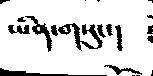ཡིན་གསུང་།
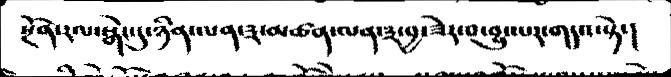སྔོན་རལ་སྒེང་དུ་ཉིན་ལན་༣་མཚན་ལན་༣་བྱ་ཟེར་བ་བྱུང་པར་གདའ་སྟེ་།
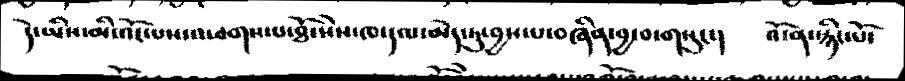དེ་ཡིས་མི་འོང་པས་འཕགས་པ་ཐོ་སེས་ཁ་དལ་མེད་ཏུ་བྱས་པ་བཞིན་བྱ་བ་གསུང་།  འོ་ན་སྙིང་པོ་
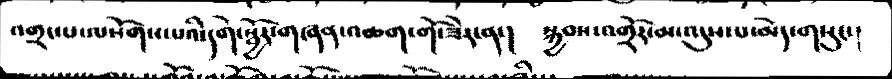འགྲང་པ་ལསོགས་པའི་དགེ་སྦྱོར་གཞན་འཆག་གོ་ཟེར་ན་།  སྐྱབས་འགྲོར་མ་འདུས་པ་མེད་གསུང་།
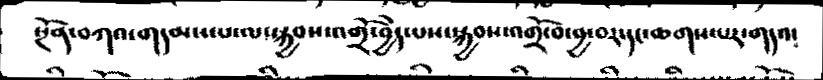སྔོན་བཀའ་གདམས་པ་ལ་སྐྱབས་འགྲོ་བྱེད་པས་སྐྱབས་འགྲོ་བ་བྱ་བར་དང་ཆགས་པར་གདའ་
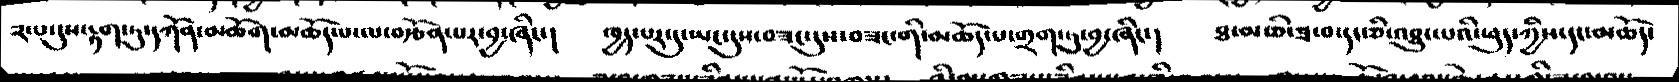༢་པ་དུས་རྟག་ཏུ་དཀོན་མཆོག་མཆོད་པ་ལ་བརྩོན་པར་བྱ་ཞིང་།  ཁྱད་པར་དུ་ཡང་དུས་བཟང་དུས་བཟང་གི་མཆོད་པ་གྲག་ཏུ་བྱ་ཞིང་།  ཐ་མ་ཅི་ཟ་བ་དང་ཅི་འཐུང་པའི་ཕུད་ཀྱིས་དང་མཆོད་
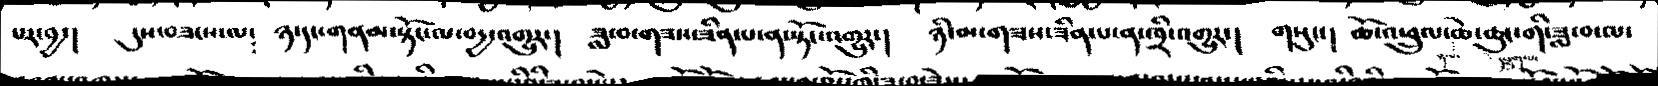པར་བྱ་།   དུས་བཟང་ལ་  ཉ་དང་གནམ་སྟོང་ལ་བདྱ་འགྱུར་།  ཟླ་བ་གཟས་ཟིན་པ་ན་སྟོང་འགྱུར་།  ཉི་མ་གཟས་ཟིན་པ་ན་ཁྲི་འགྱུར་།  གསུང་།  ཆོ་འཕྲུལ་ཆེ་ཆུང་གི་ཟླ་བ་ལ་
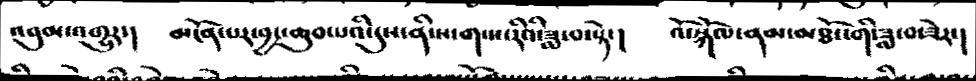འབུམ་འགྱུར་།   མངོན་པར་བྱང་ཆུབ་པའི་དུས་ནི་ས་ག་ས་རིའི་ཟླ་བ་སྟེ་།  འོ་སྐོལ་ནམ་མཐོང་གི་ཟླ་བ་ཟེར་།
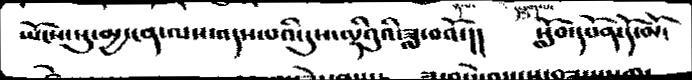ཡོངས་སུ་མྱ་ངན་ལས་འདས་པའི་དུས་ལྷའིུའི་ཟླ་བའོ་།    སློབ་དཔོན་དོ་མོ་
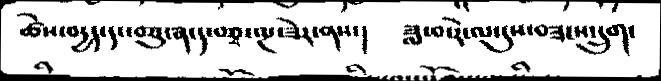ཚེས་བདྱད་དང་བཅུ་ན་དང་བཅྭ་ལྔ་ཟེར་ནས་།   ཟླ་བ་རེ་ལ་དུས་བཟངས་དྲུག་
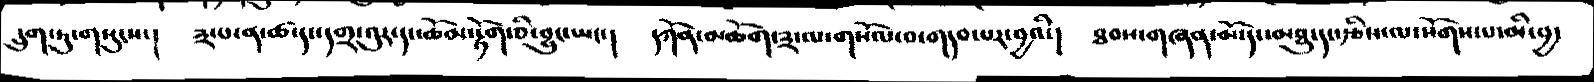དྲུག་ཏུ་གསུངས་།  ༣་པ་ན་ཚ་དང་དགྲ་འུར་དང་ཆོམ་རྟོག་ཅི་བྱུང་ཡང་།   དཀོན་མཆོག་༣་ལ་གསོལ་བ་གདབ་པར་བྱའི་།   ཐབས་གཞན་མོ་དང་མཐུ་དང་རྩིས་ལ་སོགས་པ་མི་བྱ་
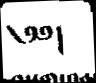༄༅།
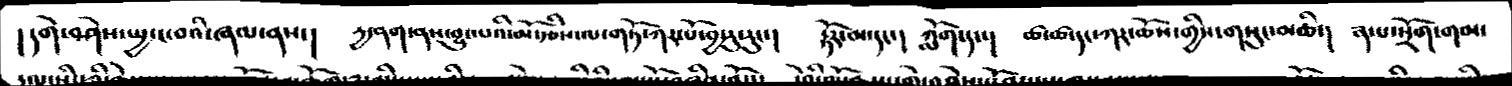།དགེ་བཤེས་སྤྱ་ང་བའི་ཞལ་ནས་།   དྱ་ནག་ནས་བྱུང་པའི་མོ་རྩིས་ལ་གཏོ་ཀར་པོ་བྱ་རུ་རུང་།   རྟོར་མ་དང་།  ཀློག་དང་།    ཚ་ཚ་དང་ཀར་ཆོས་གྱིས་གསུང་མཆི་།   རྣ་པ་སྲོག་གམ་
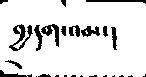བྱ་དག་འམ་།
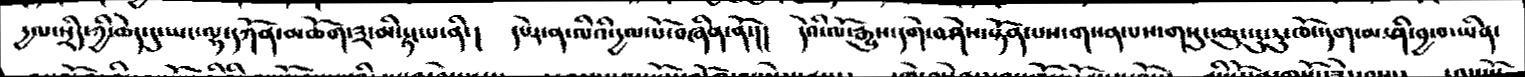དྱལ་སྲིད་ཀྱི་ཆེད་དུ་ཡང་ལྷ་དཀོན་མཆོག་༣་མི་རྟང་པ་ནི་།  དཔེར་ན་ལིའི་དྱལ་པོ་བཞིན་ནོ་།།  དེའི་ལོ་རྒྱུས་དགེ་བཤེས་སྟོན་པས་གསན་པས་གསུང་ཆུང་ངུ་རུ་ཁོང་དག་མ་ཤི་བྱ་བ་ཡིན་
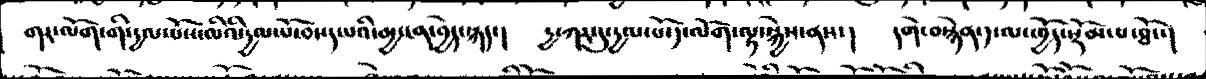གར་ལོག་གི་དྱལ་པོས་ལིའི་དྱལ་པོ་བསད་པའི་མྱ་ངན་བྱེད་སྐད་།  དྱ་ཀར་དུ་དྱལ་པོ་༡་ལོག་ལྟ་སྐྱེས་ནས་།  དགེ་བསྙེན་༡་ལ་ཁྱོད་སྡོམ་པ་ཐོང་།
